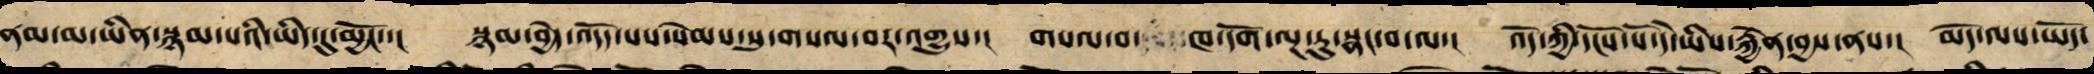ནམ་མ་ཡིན་སྙམ་པ་ཡིད་དུ་མྱོང་་། སྙམ་བྱེད་འདོད་པས་སེམས་སུ་གསལ་བར་འགྱུས་། གསལ་བ་ཁ་དོག་ལྔ་རུ་སྣང་བ་ལ་། འོད་ཀྱི་དངོས་པོ་དེ་ཡིས་རྐྱེན་བྱས་ནས་། མེད་ལས་ཡོད་
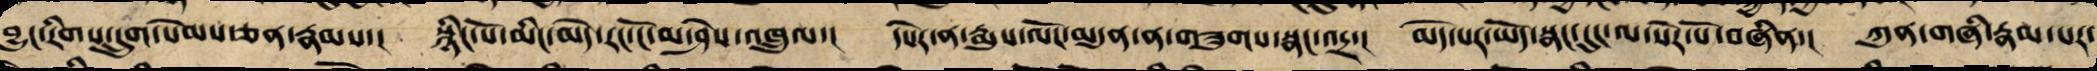བྱུང་རིགས་དྲུག་སེམས་ཅན་རྣམས་། སྙིང་པོ་མིང་མེད་རང་ངོ་མ་ཤེས་འཁྲུལ་། དཔེར་ན་རྨུས་ལོང་མདུན་ན་གཟུགས་སྣང་འདྲ་། མེད་པར་ཡོད་སྣང་དུང་ལ་སེར་པོ་བཞིན་། ཀུན་གཞི་རྣམ་པར་
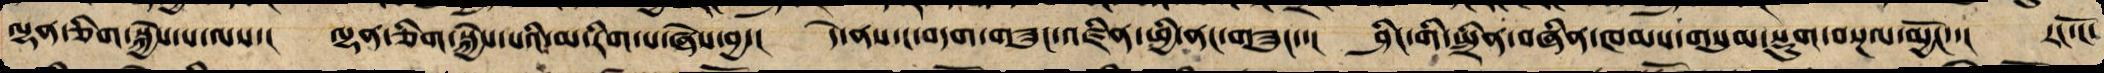ལྷན་ཅིག་སྐྱེས་པ་ལས་། ལྷན་ཅིག་སྐྱེས་པའི་མ་རིག་པ་ཞེས་བྱ་། དེ་ནས་ང་བདག་གཟུང་འཛིན་ཕྱི་ནང་ཟུང་་། ཤིང་གི་སྲིན་བཞིན་ཁམས་གསུམ་སྡུག་བསྔལ་མྱོང་་། རང་ངོ་
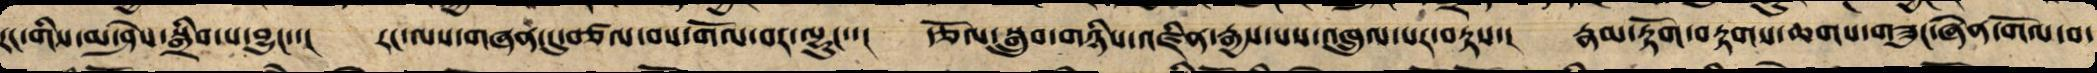རང་གིས་མ་ཤེས་སྒྲིབས་པས་བྱུང་་། རང་ལས་གཞན་དུ་བཙལ་བས་གོལ་བར་ལྷུང་་། རྩོལ་སྒྲུབ་གཉིས་འཛིན་རྒྱས་པས་འཁྲུལ་པ་བརྟས་། རྣམ་རྟོག་བརྟགས་ཆགས་གཟུང་ཞེན་གོལ་བ་
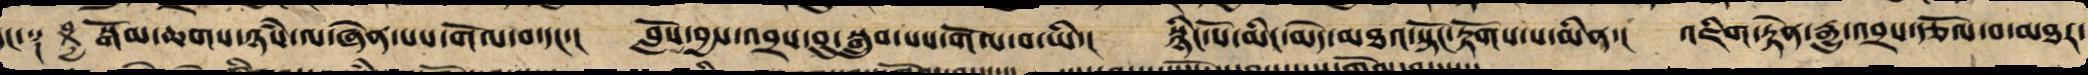དང་། བསྒོམ་ཆགས་ཉམས་ལ་ཞེན་པས་གོལ་བ་དང་། །བློས་བྱས་འབྲས་བུ་བསྒྲུབས་པས་གོལ་བ་ཡིས། །སྙིང་པོ་མིང་མེད་མཐའ་སྟོང་རྟོགས་པ་མིན། །འཇིག་རྟེན་རྒྱུ་འབྲས་རྩོལ་བ་མཐར་༄༅། །
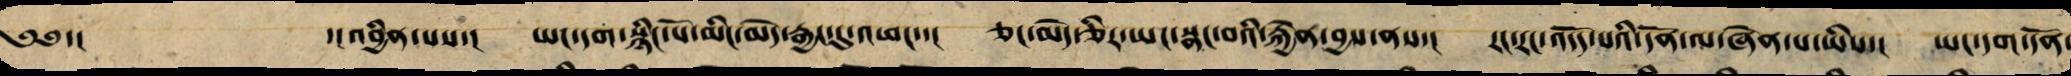༄༅་། ་།འབྱིན་པས་། ཡང་དག་སྙིང་པོ་མིང་མེད་རྒྱང་དུ་འཕར་། ཅང་མེད་ཅིར་ཡང་སྣང་བའི་རྐྱེན་བྱས་ནས་། རང་རང་འདོད་པའི་དོན་ལ་ཞེན་པ་ཡིས་། ཡང་དག་དོན་
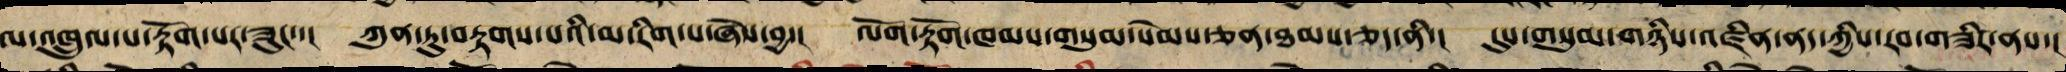ལ་འཁྲུལ་པས་རྟོག་པར་བཟུང་་། ཀུན་ཏུ་བརྟགས་པའི་མ་རིག་པ་ཞེས་བྱ་། ལོག་རྟོགས་ཁམས་གསུམ་སེམས་ཅན་ཐམས་ཅད་ནི་། དུས་གསུམ་གཉིས་འཛིན་ནད་ཀྱིས་རབ་གཟིར་ནས་།
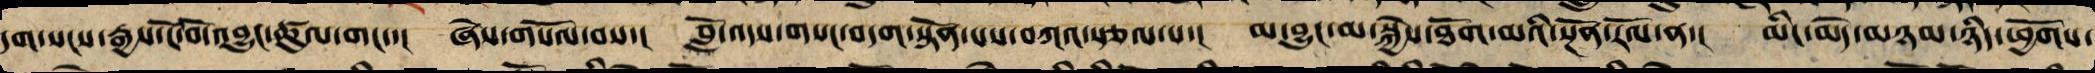དག་སངས་རྒྱས་ངོ་བོ་འབྱུང་ཚུལ་གང་་། ཞེས་གསོལ་བས་། བློ་འདས་གསང་བདག་སྟོན་པས་བཀའ་སྩལ་པ་། མ་བྱུང་མ་སྐྱེས་ཐོག་མའི་སྔོན་རོལ་ན་། མིང་མེད་མཉམ་ཉིད་ཕྱོགས་
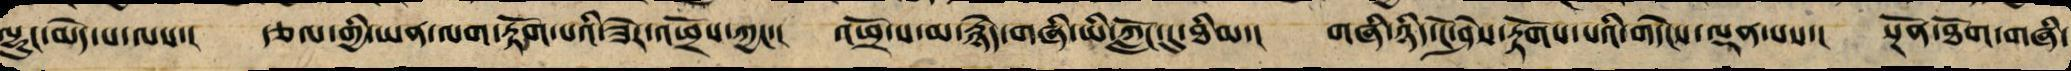ལྷུང་མེད་པ་ལས་། རྩལ་གྱི་ཡན་ལག་རྟོག་པའི་ཟེར་འཕྲོས་ཀྱང་། འཕྲོ་ས་མ་རྙེད་གཞི་ཡི་ཀློང་དུ་ཐིམ་། གཞི་ཉིད་ངོ་ཤེས་རྟོག་པའི་གདེངས་ལྡན་པས་། སྔོན་ཐོག་གཞི་
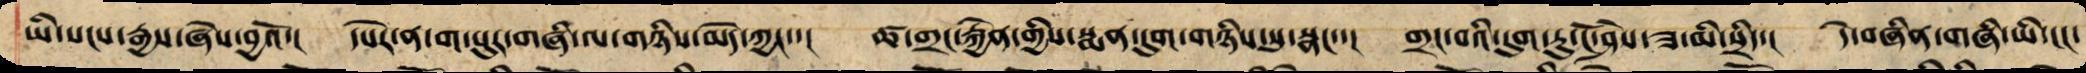ཡི་སངས་རྒྱས་ཞེས་བྱའོ་། དཔེར་ན་ག་པུར་གཞི་ལ་གཉིས་མེད་ཀྱང་་། ཚ་གྲང་རྐྱེན་གྱིས་སྨན་དུག་གཉིས་སུ་སྣང་་། གྲང་བའི་དུག་ཏུ་ངོ་ཤེས་ཟ་མི་སྲིད་། དེ་བཞིན་གཞི་ཡི་ངང་
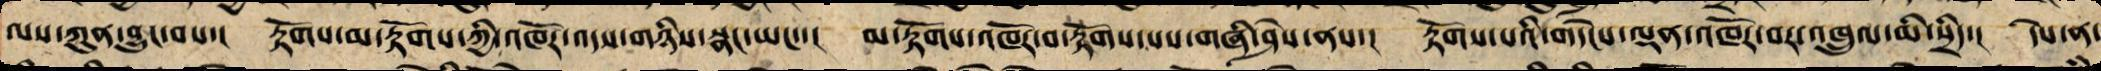ལས་ཀུན་འབྱུང་བས་། རྟོགས་མ་རྟོགས་ཀྱི་འཁོར་འདས་གཉིས་སྣང་ཡང་་། མ་རྟོགས་འཁོར་བ་རྟོགས་པས་གཞི་ཤེས་ནས་། རྟོགས་པའི་གདེངས་ལྡན་འཁོར་བར་འཁྲུལ་མི་སྲིད་། དེས་ན་
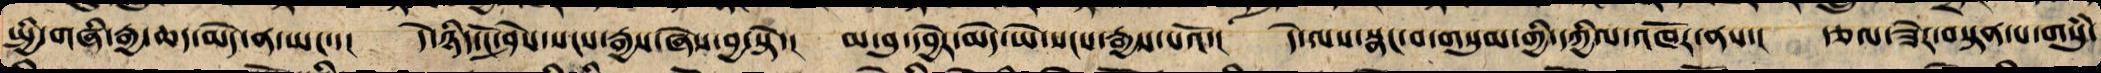སྤྱི་གཞི་རྒྱ་ཆད་མེད་ན་ཡང་་། དེ་ཉིད་ངོ་ཤེས་སངས་རྒྱས་ཞེས་བྱ་སྟེ་། མ་བུ་དབྱེར་མེད་ཡེ་སངས་རྒྱས་པའོ་། དེ་ལས་སྣང་བ་གསུམ་གྱི་དཀྱིལ་འཁོར་ནས་། རྩལ་ཟེར་བསྟན་པ་གསུཾ་
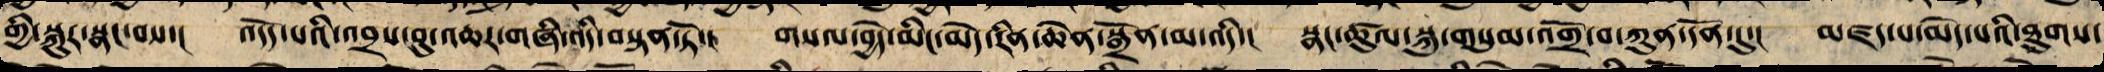གྱི་སྐུར་སྣང་བས་། འདོད་པའི་འབྲས་བུ་འཆར་གཞི་འདི་བསྟན་ཏོ་། གསལ་བྱེད་མིང་མེད་རིན་ཆེན་སྒྲོན་མ་འདི་། སྣང་ཚུལ་སྐུ་གསུམ་འགྲོ་བ་ཀུན་དོན་དུ་། འཛད་པ་མེད་པའི་ཐུགས་
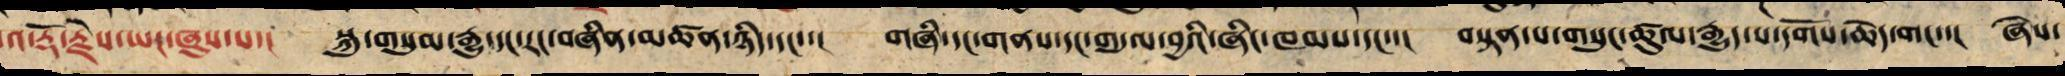འ་རྡོ་རྗེས་ཡང་ཞུས་པ་། སྐུ་གསུམ་རྒྱུ་དང་རང་བཞིན་མཚན་ཉིད་དང་་། གཞི་དང་གནས་དང་གདུལ་བྱའི་ཞིང་ཁམས་དང་་། བསྟན་པ་གསུང་ཚུལ་བརྒྱུད་པ་དགོས་ཆེད་གང་་། ཞེས་
